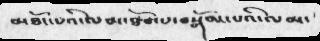མཐོང་པའི་ལམ་ཐོབ་པ་བསྒོམ་པའི་ལམ་
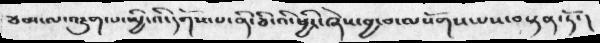ཙམ་ལ་འཇུག་པ་ཡྱི་འི་དགོས་པ་ནི་ཅི་འི་ཕྱིར་ཞེས་བྱ་བ་ལསོགས་པས་བསྟན་ཏོ་།
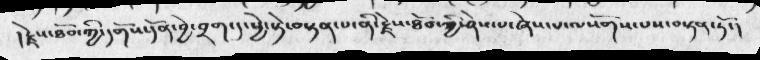།རྗེས་ཐོབ་ཀྱི་དགོས་དོན་བྱེ་བྲག་དུ་ཕྱེ་སྟེ་བསྟན་པ་ནི་རྗེས་ཐོབ་ཀྱི་ཤེས་པ་ཞེས་པ་ལསོགས་པས་བསྟན་ཏོ་།
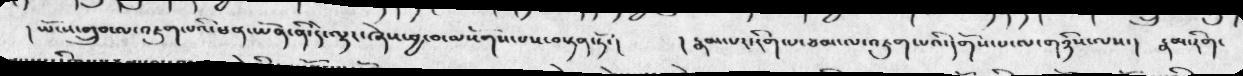།  ཡོངས་གྲུབ་ལ་འཇུག་པའི་ཕན་ཡོན་ནི་དེ་ལྟར་ཞེས་བྱ་བ་ལསོགས་པས་བསྟན་ཏོ་།  ། རྣམ་པར་རིག་པ་ཙམ་ལ་འཇུག་པའི་དགོས་པ་ལ་གཉིས་ལས་།   རྣམ་རིག་
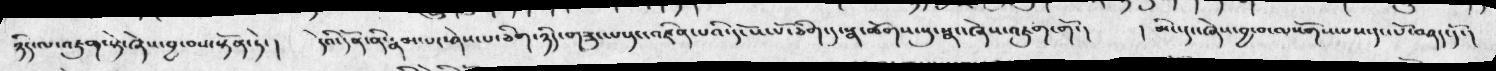ཉིད་ལ་འཇུག་སྟེ་ཞེས་བྱ་བས་སྟོན་ཏེ་།   དེའི་དོན་ནི་རྣམ་པར་ཤེས་པ་ཅིག་ཉིད་གཟུང་པ་དང་འཛིན་པའི་དངོས་པོ་ཅིག་དུ་སྣ་ཚོགས་སུ་སྣང་ཞེས་འཇུག་གོ་།    ། མིང་དང་ཞེས་བྱ་བ་ལསོགས་པས་དང་པོ་བཤད་དོ་།
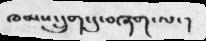ཁམས་དྲུག་དུ་བཞག་ལ་ །
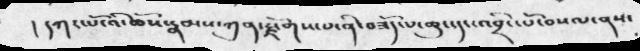། དཀར་པོ་འི་ཆོས་རྣམས་ཀུན་རྫོགས་པ་ནི་བཟོད་པ་ཆུང་དང་འབྲིང་པོ་བསལ་ནས་
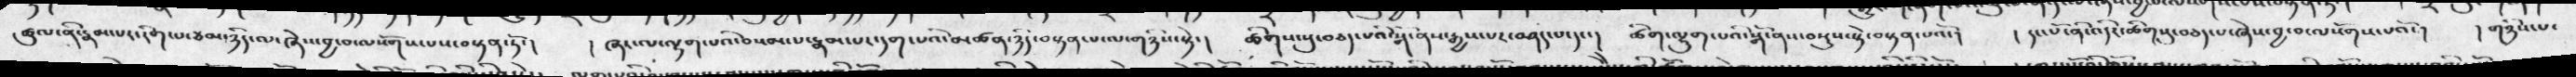ཚུལ་ནི་རྣམ་པར་རིག་པ་ཙམ་ཉིད་ལ་ཞེས་བྱ་བ་ལསོགས་པས་བསྟན་ཏོ་།  ། ཞར་ལ་ལྷག་པའི་བསམ་པ་རྣམ་པར་དག་པའི་མཚན་ཉིད་བསྟན་པ་ལ་གཉིས་སྟེ་།  ཚིགས་སུ་བཅད་པའི་སྒོ་ནས་རྒྱས་པར་བཤད་པ་དང་།  ཚིག་ལྷུག་པའི་སྒོ་ནས་བསྡུས་སྟེ་བསྟན་པའོ་།  ། དང་པོ་ནི་འདིར་ཚུགསུ་བཅད་པ་ཞེས་བྱ་བ་ལསོགས་པའོ་།  ། གཉིས་པ་
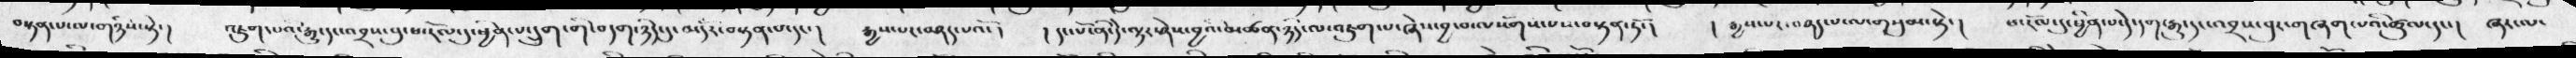བསྟན་པ་ལ་གཉིས་སྟེ་།  འཇུག་པའི་རྒྱུ་དང་འབྲས་བུ་ཕ་རོལ་དུ་ཕྱིན་པ་དྲུག་གི་བདག་ཉིད་དུ་མདོར་བསྟན་པ་དང་།   རྒྱས་པར་བཤད་པའོ་།   ། དང་པོ་ནི་དེ་ལྟར་ཤེས་བྱའི་མཚན་ཉིད་ལ་འཇུག་པ་ཞེས་བྱ་བ་ལསོགས་པས་བསྟན་ཏོ་།  རྒྱས་པར་བཤད་པ་ལ་གསུམ་སྟེ་།  ཕ་རོལ་དུ་ཕྱིན་པ་དེ་དག་རྒྱུ་དང་འབྲས་བུར་གཞག་པའི་ཚུལ་དང་།   ཞར་ལ་
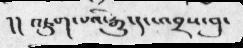།། འཇུག་པའི་རྒྱུ་དང་འབྲས་བུ་
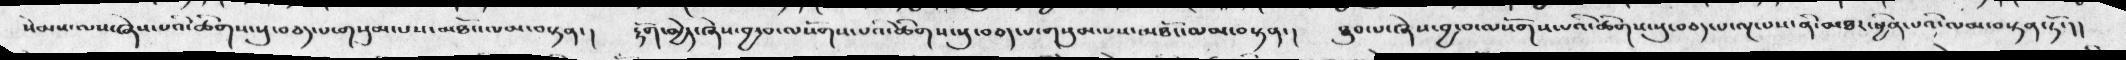སེམས་ལས་ཞེས་པའི་ཚིགས་སུ་བཅད་པ་གསུམ་པས་མཐོང་ལམ་བསྟན་།   རྟོག་མྱེད་ཞེས་བྱ་བ་ལསོགས་པའི་ཚིགས་སུ་བཅད་པ་གསུམ་པས་མཐོང་ལམ་བསྟན་། ཐུབ་པ་ཞེས་བྱ་བ་ལསོགས་པའི་ཚིགས་སུ་བཅད་པ་ལྔ་པས་ནི་མཐར་ཕྱིན་པའི་ལམ་བསྟན་ཏོ་།།
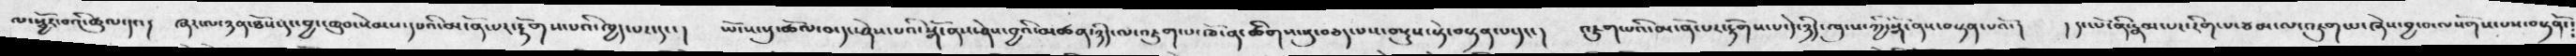ལ་སྦྱོར་བའི་ཚུལ་དང་།   ཞར་ལ་ཉན་ཐོས་དང་བྱང་ཆུབ་སེམས་དཔའི་མངནོ་པར་རྟོགས་པའི་ཁྱད་པར་དང་།  ཡོངས་སུ་ཚོལ་བ་དང་ཤེས་པའི་སྒོ་ནས་ཤེས་བྱའི་མཚན་ཉིད་ལ་འཇུག་པ་ཁོ་ན་ཚིགས་སུ་བཅད་པས་བསྡུས་སྟེ་བསྟན་པ་དང་།   འཇུག་པའི་མངོན་པར་རྟོགས་པ་དེ་ཉིད་ཁུངས་ཀྱི་སྒོ་ནས་བསྟན་པའོ་།  ། དང་པོ་ནི་རྣམ་པར་རིག་པ་ཙམ་ལ་འཇུག་པ་ཞེས་བྱ་བ་ལསོགས་པས་བསྟནོ་
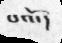པའོ་།
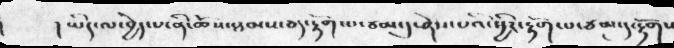།   ། ཡིད་ལ་བྱེད་པ་ནི་ཆོས་ཐམས་ཅད་རྟོག་པ་ཙམ་དུ་ཤེས་པའི་ཕྱིར་རྟོག་པ་ཙམ་དུ་རྟོགས
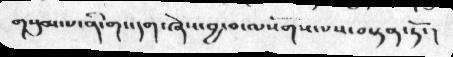གསུམ་པ་ནི་གང་དག་ཞེས་བྱ་བ་ལསོགས་པས་བསྟན་ཏོ་།
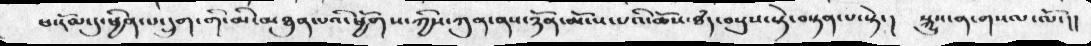ཕ་རོལ་དུ་ཕྱིན་པ་དྲུག་གི་མི་མཐུན་པའི་ཕྱོགས་ཀྱིས་ཀུན་ནས་ཉོན་མོངས་པའི་ཆོས་ཐཾད་བསུས་སྟེ་བསྟན་པ་སྟེ་།  སྐྱུས་ན་གསལ་ལོ་།།
